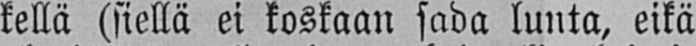kellä (siellä ei koskaan sada lunta, eikä
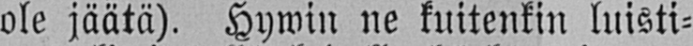ole jäätä). Hywin ne kuitenkin luisti-
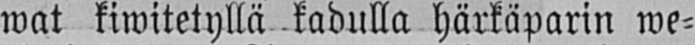wat kiwitetyllä kadulla härkäparin we-
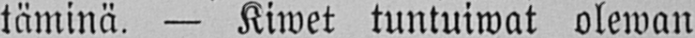täminä. — Kiwet tuntuiwat olewan
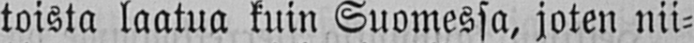toista laatua kuin Suomessa, joten nii-
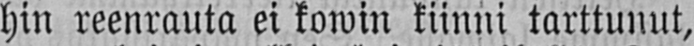hin reenrauta ei kowin kiinni tarttunut,
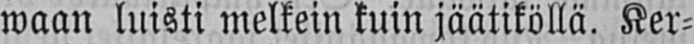waan luisti melkein kuin jäätiköllä. Ker-
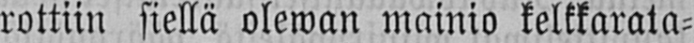rottiin siellä olewan mainio kelkkarata-
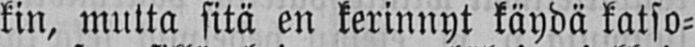kin, mutta sitä en kerinnyt käydä katso-
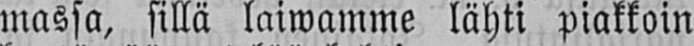massa, sillä laiwamme lähti piakkoin
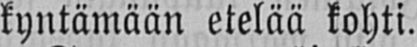kyntämään etelää kohti.
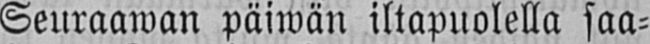Seuraawan päiwän iltapuolella saa-
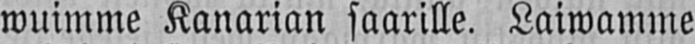wuimme Kanarian saarille. Laiwamme
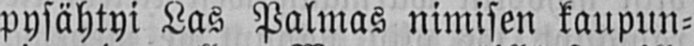pysähtyi Las Palmas nimisen kaupun-
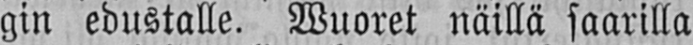gin edustalle. Wuoret näillä saarilla
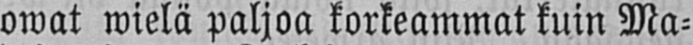owat wielä paljoa korkeammat kuin Ma-
